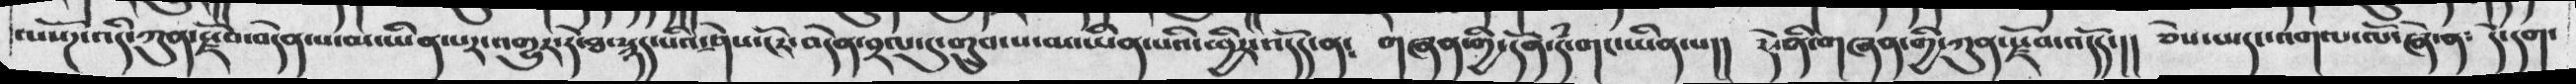་པ་སོཌ་འདི་ཀུན་སྫོབ་བདེན་པ་མ་ཡིན་པར་འགྱུར་ཏེ་ཐ་སྙད་པའི་ཤེས་ངོར་བདེན་བྲལ་དུ་གྲུབ་པ་མ་ཡིན་པའི་ཕྱིར་འདོད་ན༴   གཞན་གྱི་དོན་དྃ་གང་ཡིན་པ།།  དེ་ནི་གཞན་གྱི་ཀུན་སྫོབ་འདོད་།།  ཅེས་པ་དང་འགལ་ལོ་ཞེས་ན༴  དེ་དག་
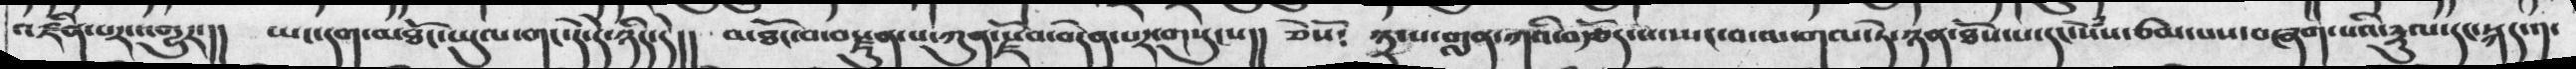འཛིན་པར་འགྱུར་།།   ཡང་དག་མཐོང་ཡུལ་གང་དེ་དེ་ཉིད་དེ།།  མཐོང་བ་བསྫུན་པ་ཀུན་སྫོབ་བདེན་པར་གསུངས།།  ཅེསོ༴  ༣་པ་གླན་ཀའི་བརྩོད་པ་སསྤང་བ་ལ་གལ་ཏེ་ཉན་ཐོས་པ་དང་སེྃས་ངཙམ་པས་བཞག་པའི་རྡུལ་དང་སྐད་༡་
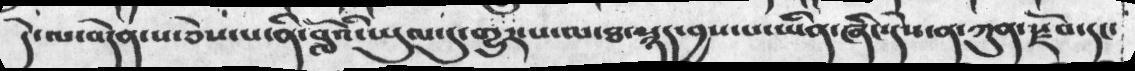དེ་ལ་བདེན་པ་ཅེས་པ་ནི་བློའི་་ཡུལ་དུ་གྱུར་པ་ལ་ཐ་སྙད་བྱས་པ་ཡིན་ཞིང་དེས་ན་ཀུན་སྫོབ་དང་
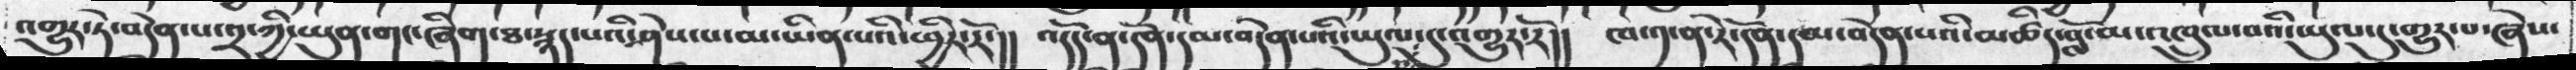འགྱུར་ཏེ་བདེན་པ་༢་ཀྱི་ཡུན་གང་ཞིག་ཐ་སྙད་པའི་ཤེས་པ་མ་ཡིན་པའི་ཕྱིར་རོ་།།  འདོད་ན་དོན་དམ་བདེན་པའི་ཡུལ་དུ་འགྱུར་རོ།།  ཁ་༡་ན་རེ་དོན་དམ་བདེན་པའི་མཚིད་བློ་མ་འཁྲུལ་བའི་ཡུལ་དུ་གྱུར་པ་ཞེས་
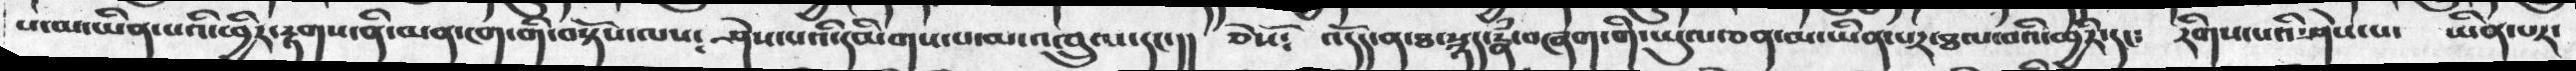པ་མ་ཡིན་པའི་ཕྱིར་རྟགས་ནི་མན་ངག་གི་བསྟོས་ལས༴    ཤེས་པའི་དམིགས་པ་མ་འཁྲུལ་དང་།།   ཅེསོ༴   འདོད་ན་ཐ་སྙད་རྣྃ་བཞག་གི་ཡུལ་ཅན་མ་ཡིན་པར་ཐལ་བའི་ཕྱིར་དང༴  རིགས་པའི་ཤེས་པ་   ཡིན་པར་
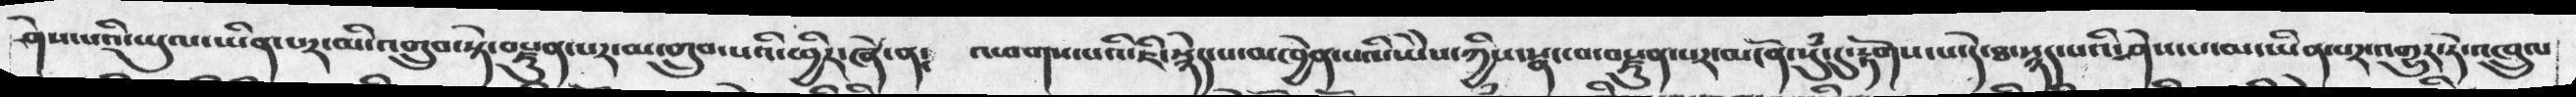ཤེས་པའི་ཡུལ་ཡིན་པར་མི་འགྲུབ་སྟེ་བསྫུན་པར་མ་གྲུབ་པའི་ཕྱིར་ཞེ་ན༴   འཕགས་པའི་ཇི་སྙེད་པ་མཁྱེན་པའི་ཡེེས་ཀྱིས་སྣང་བ་བསྫུན་པར་མངོན་སུྃ་དུ་རྟོགས་པ་དེ་ཐ་སྙད་པའི་ཤེས་པ་མ་ཡིན་པར་འགྱུར་ཏེ་འཁྲུལ
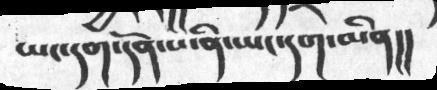ཡང་དག་དོན་པ་ནི་ཡང་དག་མིན།།
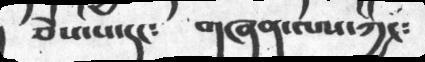ཅེས་པ་དང༴    གཞན་ལས་ཀྱང༴
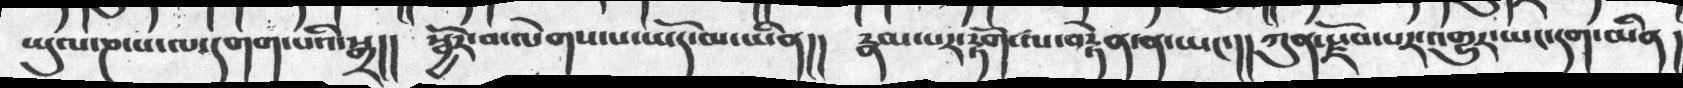ཡུལ་ཎ་པ་ལ་དགག་པའི་སྒྲ།།    སྦྱོར་བ་ལེགས་པ་ཡོད་མ་ཡིན།།   རྣམ་པར་རྟོག་ལ་བརྟེན་ན་ཡང་།།   ཀུན་སྫོབ་པར་འགྱུར་ཡང་དག་མིན།
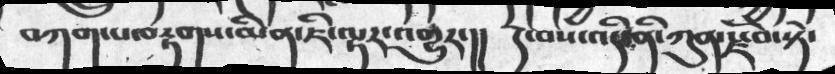བཀག་པ་བརྟགས་མིན་ཇི་ལྟར་འགྱུར་།།   དེ་བས་འདི་ནི་ཀུན་སྫོབ་སྟེ་
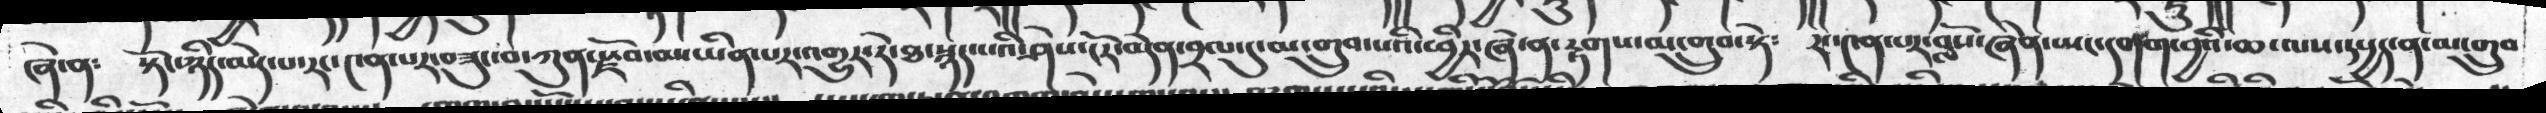ཞེ་ན༴  སྟོང་ཉིད་མེད་པ་རང་༤ན་པར་བཟུང་བ་ཀུན་སྫོབ་མ་ཡིན་པར་འགྱུར་ཏེ་ཐ་སྙད་པའི་ཤེས་ངོར་བདེན་བྲལ་དུ་མ་གྲུབ་པའི་ཕྱིར་ཞེས་ན་རྟགས་མ་གྲུབ་སྟེ༴   རང་༤ན་པར་བློས་ཞེན་ཡང་དགག་བྱའི་ཆ་ལས་དཔྱད་ན་མ་གྲུབ་
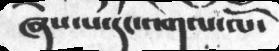ཞེས་པ་དང་འགལ་ལོ་
